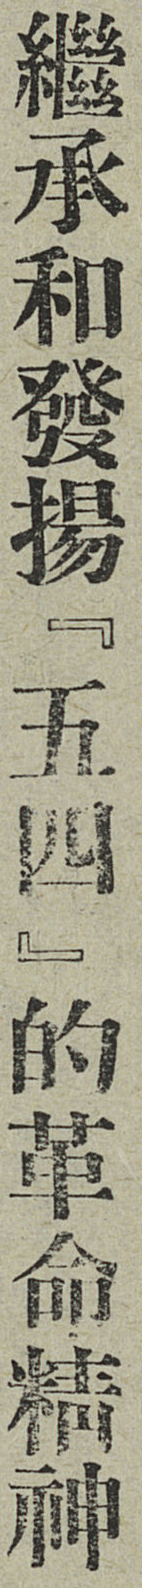繼承和發揚『五四』的革命精神
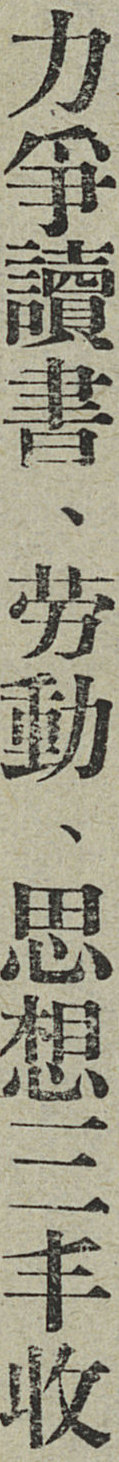力爭讀書、勞動、思想三豐收
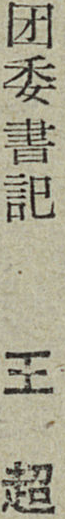團委書記 王超
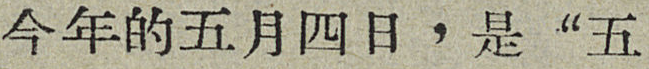今年的五月四日，是“五
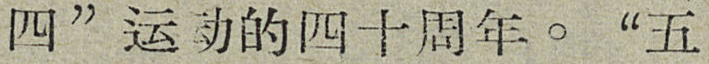四”运动的四十周年。“五
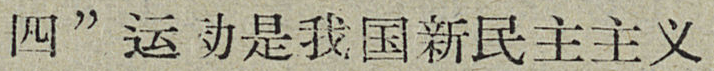四”运动是我国新民主主义
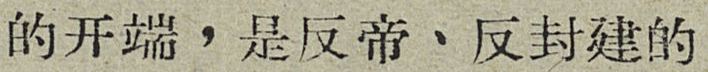的开端，是反帝、反封建的
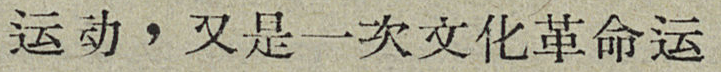运动，又是一次文化革命运
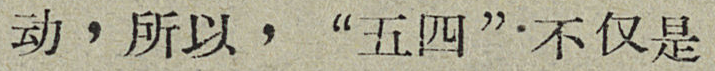动，所以，“五四”不仅是
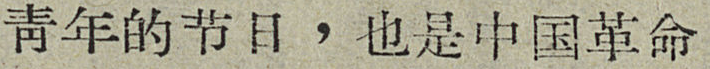靑年的节日，也是中国革命
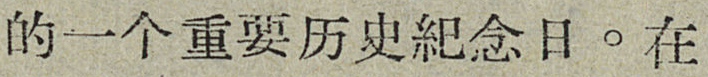的一个重要历史紀念日。在
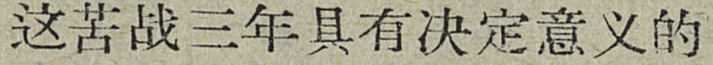这苦战三年具有决定意义的
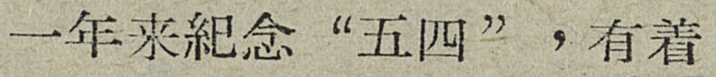一年来紀念“五四”，有着
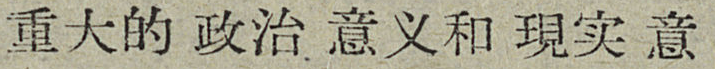重大的政治意义和現实意
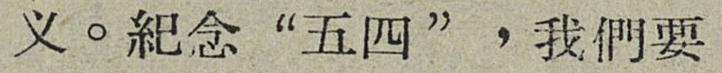义。紀念“五四”，我們要
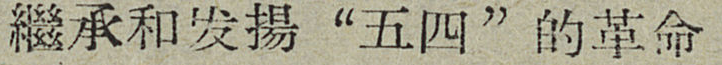繼承和发揚“五四”的革命
